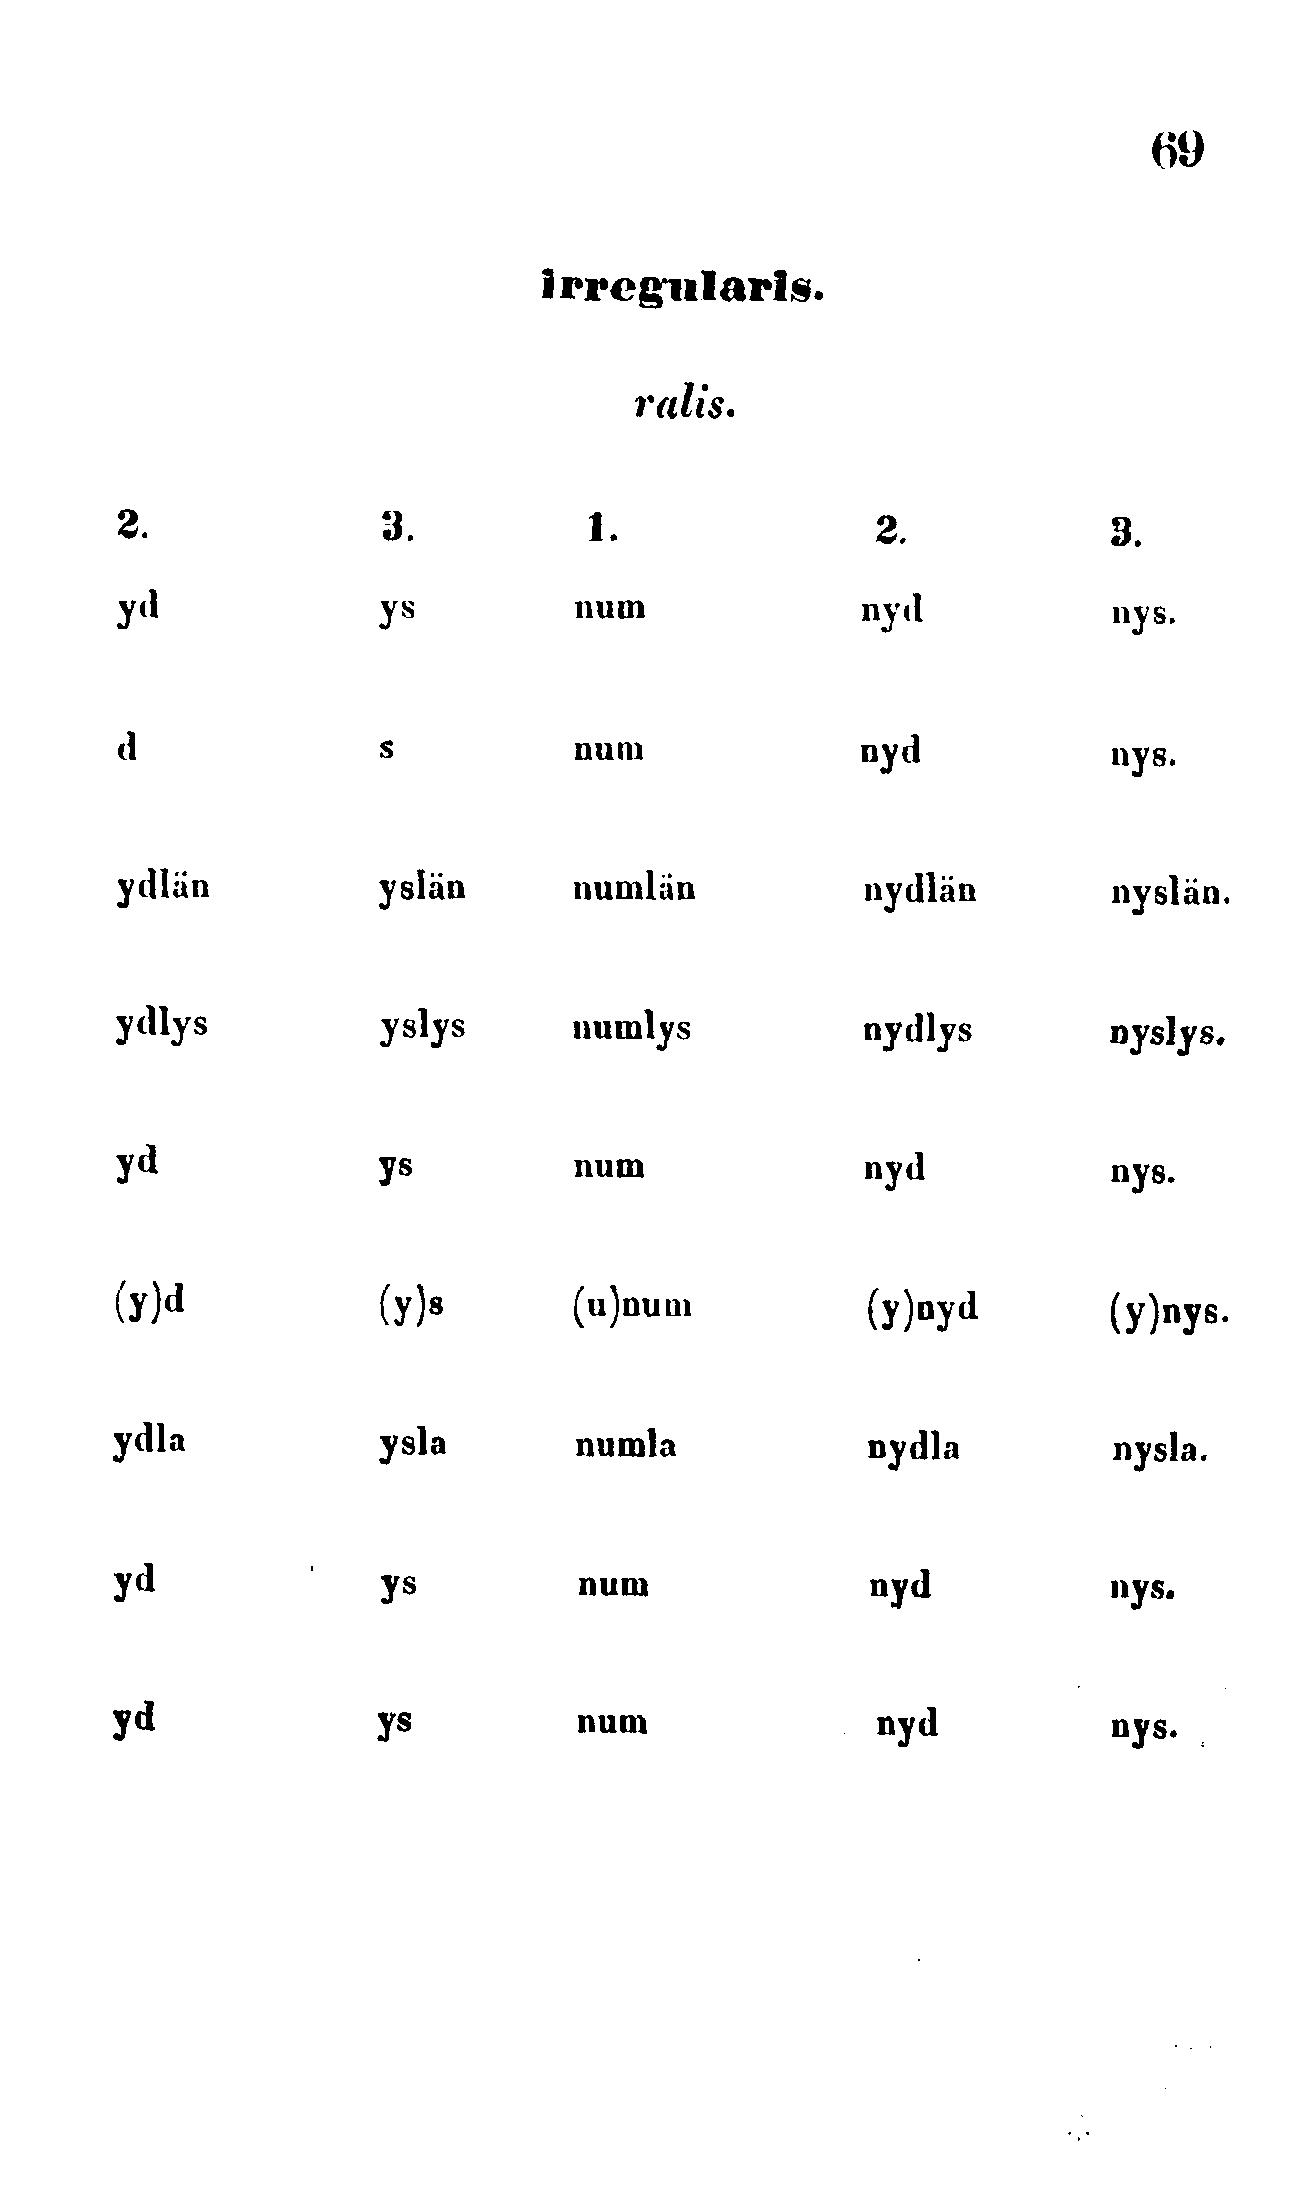69
irregularis.
ralis.
2.
3.
1.
2.
3.
yd
ys
num
nyd
nys.
d
s
num
nyd
nys.
ydlän
yslän
numlän
nydlän
nyslän.
ydlys
yslys
numlys
nydlys
nyslys.
yd
ys
num
nyd
nys.
(y)d
(y)s
(u)num
(y)nyd
(y)nys.
ydla
ysla
numla
nydla
nysla.
yd
ys
num
nyd
nys.
yd
ys
num
nyd
nys.
